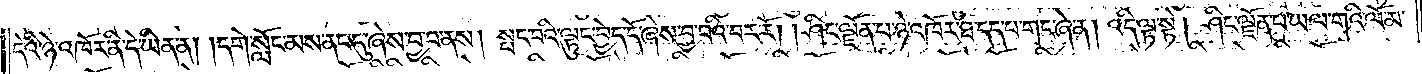དེའི་ཉེ་འཁོར་ནི་དེ་ཡིན་ན། །དགེ་སློང་མས་ནང་དུ་ཞེས་བྱ་བ་ནས། སྤང་བའི་ལྟུང་བྱེད་དོ་ཞེས་བྱ་བའི་བར་རོ། །ཤིང་ལྗོན་པ་ཉེ་འཁོར་ཐ་དད་པ་གང་ཞེ་ན། འདི་ལྟ་སྟེ། ཤིང་ལྗོན་པ་ཡལ་གའི་ལོ་མ་
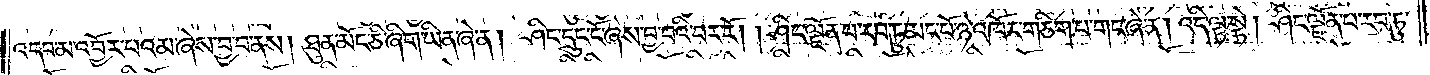འདབ་མ་འབྱོར་པའམ་ཞེས་བྱ་བ་ནས། ཐུན་མོང་ཅི་ཞིག་ཡིན་ཞེ་ན། ཤིང་དྲུང་ངོ་ཞེས་བྱ་བའི་བར་རོ། །ཤིང་ལྗོན་པ་རབ་ཏུ་མང་པོ་ཉེ་འཁོར་གཅིག་པ་གང་ཞེ་ན། འདི་ལྟ་སྟེ། ཤིང་ལྗོན་པ་རབ་ཏུ་
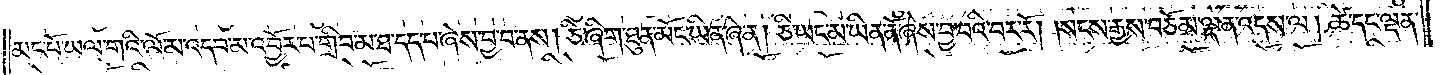མང་པོ་ཡལ་གའི་ལོ་མ་འདབ་མ་འབྱོར་པ་གྲིབ་མ་ཐ་དད་པ་ཞེས་བྱ་བ་ནས། ཅི་ཞིག་ཐུན་མོང་ཡིན་ཞེ་ན། ཅི་ཡང་མ་ཡིན་ནོ་ཞེས་བྱ་བའི་བར་རོ། །སངས་རྒྱས་བཅོམ་ལྡན་འདས་ལ། ཚེ་དང་ལྡན་
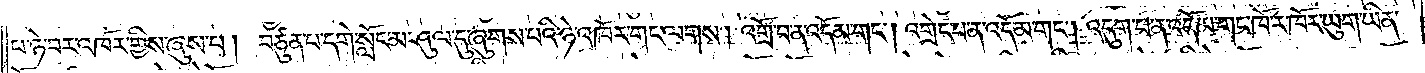པ་ཉེ་བར་འཁོར་གྱིས་ཞུས་པ། བཙུན་པ་དགེ་སློང་མ་ཤུལ་དུ་ཞུགས་པའི་ཉེ་འཁོར་གང་ལགས། འགྲོ་བ་ན་འདོམ་གང༌། འགྲེང་བ་ན་འདོམ་གང༌། འདུག་པ་ན་འདོམ་གང་ཁོ་ར་ཁོར་ཡུག་ཡིན་
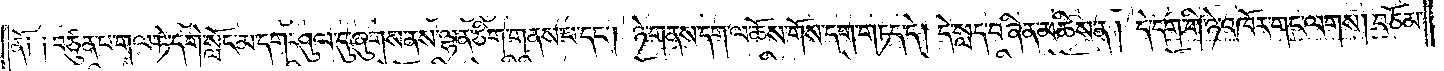ནོ༑ ༑བཙུན་པ་གལ་ཏེ་དགེ་སློང་མ་དག་ཤུལ་དུ་ཞུགས་ནས་ལྷན་ཅིག་གནས་པ་དང༌། ཉེ་གནས་དག་ལ་ཆོས་གོས་དག་གཏད་དེ། དེ་སླད་བཞིན་མཆིས་ན། དེ་དག་གི་ཉེ་འཁོར་གང་ལགས། བཅོམ་
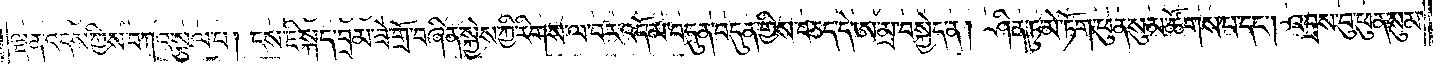ལྡན་འདས་ཀྱིས་བཀའ་སྩལ་པ། ངས་ཇི་སྐད་བྲམ་ཟེ་གྲོ་བཞིན་སྐྱེས་ཀྱི་རིགས་ལ་བར་འདོམ་བདུན་བདུན་གྱིས་བཅད་དེ་ཨ་མྲ་བསྐྱེད་ན། ཤིན་ཏུ་མེ་ཏོག་ཕུན་སུམ་ཚོགས་པ་དང༌། འབྲས་བུ་ཕུན་སུམ་
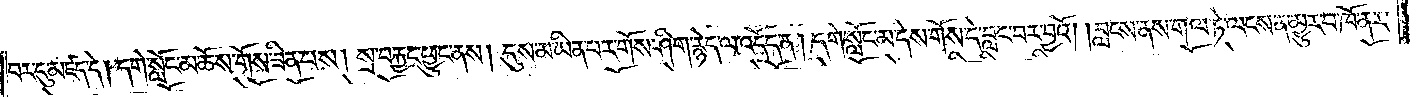བར་དུ་མཛད་དེ། དགེ་སློང་མ་ཆོས་གོས་ཟིན་པས། སྲ་བརྐྱང་ཕྱུང་ནས། དུས་མ་ཡིན་པར་གོས་ཤིག་རྙེད་ལ་འདོད་ན། དགེ་སློང་མ་དེས་གོས་དེ་བླང་བར་བྱའོ། །བླངས་ནས་གལ་ཏེ་ལངས་ན་མྱུར་བ་ཁོ་ནར་
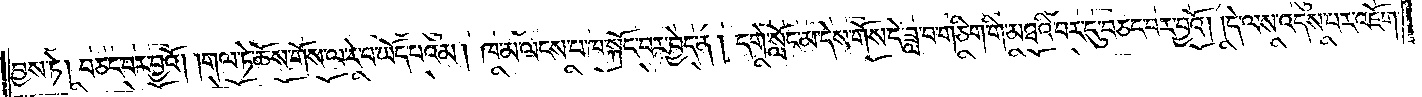བྱས་ཏེ། བཅང་བར་བྱའོ། །གལ་ཏེ་ཆོས་གོས་ལ་རེ་བ་ཡོད་པའམ། ཁ་མ་ལངས་པ་ཁ་སྐོང་བར་བྱེད་ན། དགེ་སློང་མ་དེས་གོས་དེ་ཟླ་བ་གཅིག་གི་མཐའི་བར་དུ་བཅང་བར་བྱའོ། །དེ་ལས་འདས་པར་འཇོག་
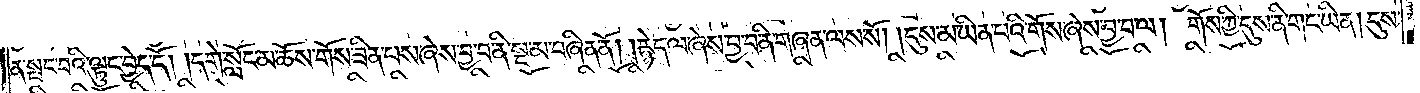ན་སྤང་བའི་ལྟུང་བྱེད་དོ། །དགེ་སློང་མ་ཆོས་གོས་ཟིན་པས་ཞེས་བྱ་བ་ནི་སྔ་མ་བཞིན་ནོ། །རྙེད་ལ་ཞེས་བྱ་བ་ནི་གཞན་ལས་སོ། །དུས་མ་ཡིན་པའི་གོས་ཞེས་བྱ་བ་ལ། གོས་ཀྱི་དུས་ནི་གང་ཡིན། དུས་
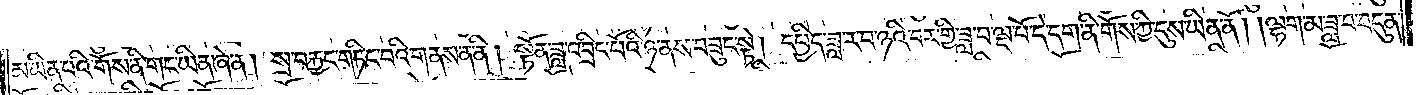མ་ཡིན་པའི་གོས་ནི་གང་ཡིན་ཞེ་ན། སྲ་བརྐྱང་གཏིང་བའི་གནས་ན་ནི། སྟོན་ཟླ་འབྲིང་པོའི་ཉ་ནས་བཟུང་སྟེ། དཔྱིད་ཟླ་ར་བ་ཉའི་བར་གྱི་ཟླ་བ་ལྔ་པོ་དེ་དག་ནི་གོས་ཀྱི་དུས་ཡིན་ནོ། །ལྷག་མ་ཟླ་བ་བདུན་
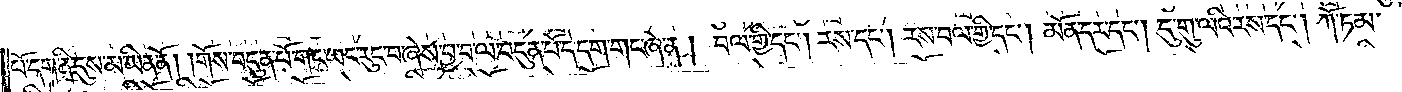པོ་དག་ནི་དུས་མ་ཡིན་ནོ། །གོས་བདུན་པོ་གང་ཡང་རུང་བ་ཞེས་བྱ་བ་ལ་བདུན་པོ་དེ་དག་གང་ཞེ་ན། བལ་གྱི་དང༌། རས་དང༌། རས་བལ་གྱི་དང༌། མོན་དར་དང༌། དུ་གུ་ལའི་རས་དང༌། ཀོ་ཏམ་
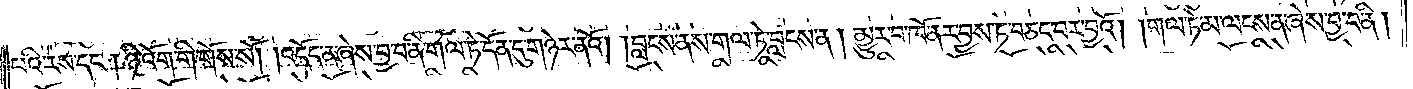པའི་རས་དང༌། ཉི་འོག་གི་གོས་སོ། །འདོད་ན་ཞེས་བྱ་བ་ནི་གལ་ཏེ་དོན་དུ་གཉེར་ནའོ། །བླངས་ནས་གལ་ཏེ་བླངས་ན། མྱུར་བ་ཁོ་ནར་བྱས་ཏེ་བཅང་བར་བྱའོ། །གལ་ཏེ་མ་ལངས་ན་ཞེས་བྱ་བ་ནི།
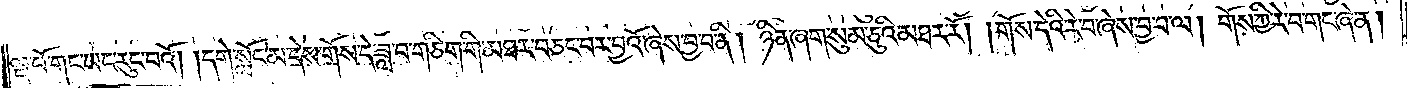ལྔ་པོ་གང་ཡང་རུང་བའོ། །དགེ་སློང་མ་དེས་གོས་དེ་ཟླ་བ་གཅིག་གི་མཐར་བཅང་བར་བྱའོ་ཞེས་བྱ་བ་ནི། ཉིན་ཞག་སུམ་ཅུའི་མཐར་རོ། །གོས་དེའི་རེ་བ་ཞེས་བྱ་བ་ལ། གོས་ཀྱི་རེ་བ་གང་ཞེ་ན།
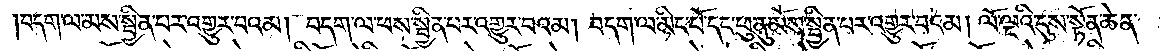བདག་ལ་མས་སྦྱིན་པར་འགྱུར་བའམ། བདག་ལ་ཕས་སྦྱིན་པར་འགྱུར་བའམ། བདག་ལ་མིང་པོ་དང་ཕུ་ནུ་མོས་སྦྱིན་པར་འགྱུར་བའམ། ལོ་ལྔའི་དུས་སྟོན་ཆེན་
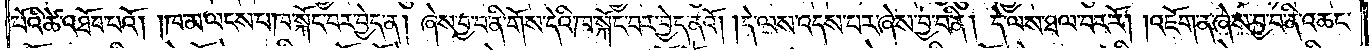པོའི་ཚེ་འཐོབ་པའོ། །ཁ་མ་ལངས་པ་ཁ་སྐོང་བར་བྱེད་ན། ཞེས་བྱ་བ་ནི་གོས་དེའི་ཁ་སྐོང་བར་བྱེད་ནའོ། །དེ་ལས་འདས་པར་ཞེས་བྱ་བ་ནི། དེ་ལས་ཐལ་བར་རོ། །འཇོག་ན་ཞེས་བྱ་བ་ནི་འཆང་
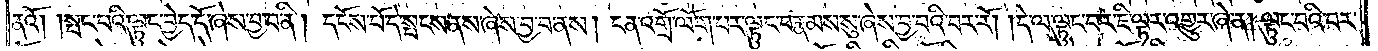ནའོ། །སྤང་བའི་ལྟུང་བྱེད་དོ་ཞེས་བྱ་བ་ནི། དངོས་པོ་དེ་སྤངས་ནས་ཞེས་བྱ་བ་ནས། ངན་འགྲོ་ལོག་པར་ལྟུང་བ་རྣམས་སུ་ཞེས་བྱ་བའི་བར་རོ། །དེ་ལ་ལྟུང་བར་ཇི་ལྟར་འགྱུར་ཞེ་ན། ལྟུང་བའི་བར་
